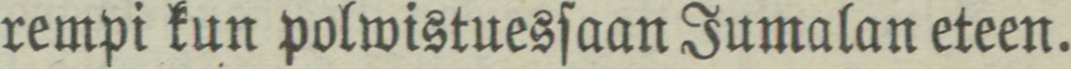rempi kun polwistuessaan Jumalan eteen.
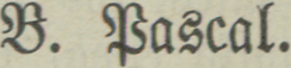B. Pascal.
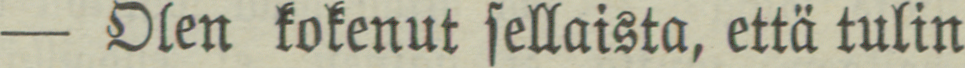— Olen kokenut sellaista, että tulin
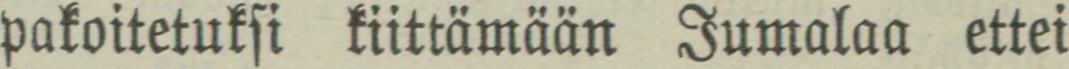pakoitetuksi kiittämään Jumalaa ettei
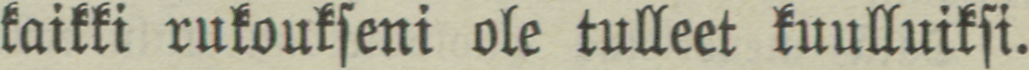kaikki rukoukseni ole tulleet kuulluiksi.
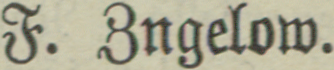F. Zngelow.
